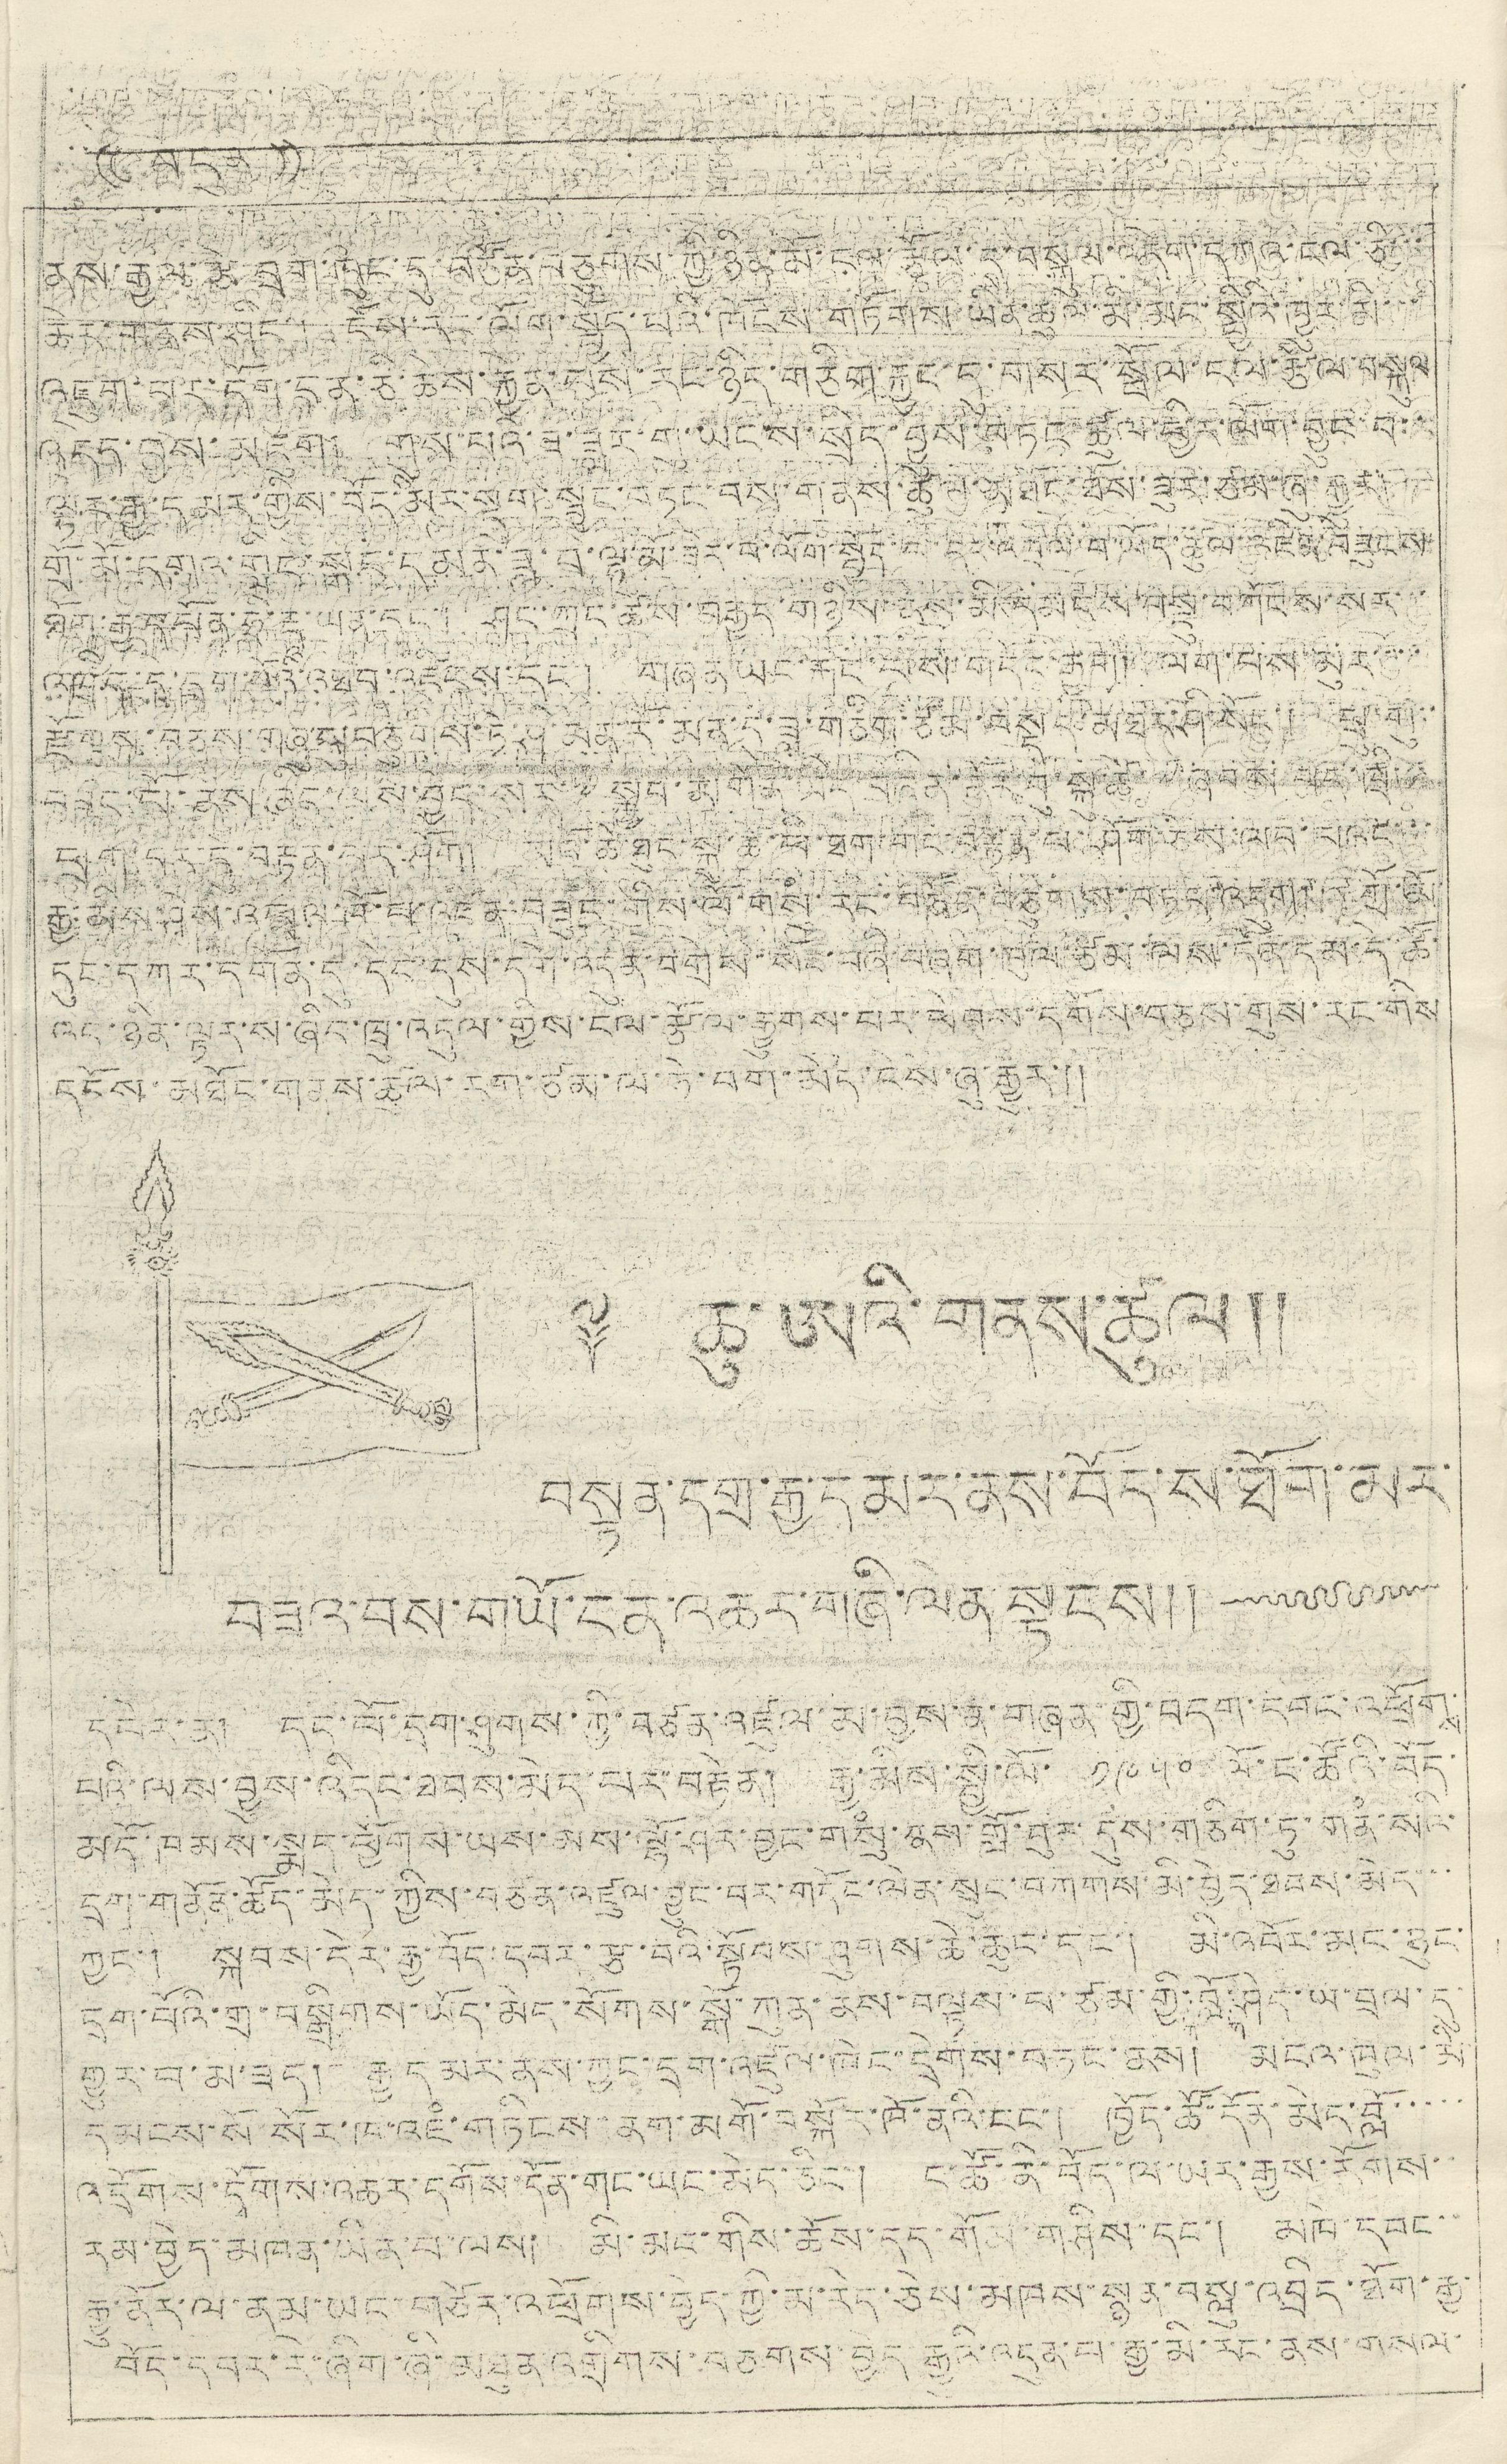(( བདུན་ ))
ནས་རྒྱལ་རྩེ་བྲག་ཁུང་དུ་བརྩོན་བཅུགས་ཀྱི་ཉིན་མོ་ངལ་རྩོལ་དུ་བསྐུལ་འདེག་དཀའ་ངལ་ཅི་
ཆེར་གནས་ཤིང་། དོས་རང་ལོག་སྤྱོད་པའི་ཁོངས་གཏོགས་ཡིན་ཚུལ་མི་མང་སྤྱིའི་ཁྱུར་མི་་་
འཇུག་པར་དོག་ངན་ཅི་ཆེས་རྐྱེན་པས་རང་ཉིད་གཅིག་རྐྱང་དུ་གསར་སྤོལ་ངལ་རྩོལ་བསྐུལ
འདད་བྱས་འཇུག། གུས་པའི་ས་ཟླར་གུ་ཡངས་སྲིད་བྱུས་བཏང་ཚུལ་ཕྱིར་ལོག་བྱུང་བ་
ལྟར་རྒྱ་དམར་གྱིས་བོད་མིར་སྡུག་སྦྱང་བཏང་བས་གནས་ཚུལ་མཐོང་ཐོས་ཟུར་ཙམ་ཞུ་རྒྱུར།
གྲོ་མོ་དགའ་གླིང་སྒང་དམན་ཟླ་བ་ལྟ་མོ་ཟེར་བ་ལོག་སྤྱོད་པ་དང་འབྲེལ་བ་ཡོད་ཚུལ་འཛིན་བཟུངས
ཐོག་རྒྱ་དཔོན་ཧྲི་རྡཱ་ཡན་དང་། ཤང་ཀྲང་ཚོས་བརྒྱད་གཉིས་ནས་མི་དམངས་བསྡུ་ཀོངས་སར་་་
འཁྲིད་དུ་དྲག་པོའི་འཐབ་འཛིངས་དང་། གཞན་ཡང་རྐང་པས་གདོང་རྒྱག། ལག་པས་མུར་་་་
རྫོགས་བཅས་གཞུས་བཅུགས་ཏེ་ཤི་མན་རོ་མན་དུ་ཟླ་གཅིག་ཙམ་བསྡད་མཐར་ཤི་སོང་། ཕྲུ་གུ་་
བཟང་པོ་ནས་ཞིང་ལས་བྱེད་སར་༸སྐྱབ་མགོན་ཡིད་བཞིན་ནོར་བུ་སྐུ་ཚེ་ཞབས་དཔེ་ཁྲི་་་
ཕྲག་བར་དུ་བརྟན་པར་ཤོག། མའོ་ཚེ་ཐུང་སྐུ་ཚེ་ཕི་ཐག་གང་བརྟན་པར་ཤོག་ཅེས་ལབ་པའང་
རྒྱ་མིས་ཤེས་འཕྲལ་ཁོ་པ་འཛིན་བཟུང་གིས་ལོ་གསུཾ་རང་བཙན་བཙུགས་བཏང་འདུག་གྲོ་མོ་
དུང་དཀར་དགོན་དུ་དེང་དུས་དགེ་འདུན་བགྲེས་སོང་བཞི་བཞག་ཁུལ་ཙམ་ལས་དོན་དམ་དེ་ཚོ་
འད་ཉིན་ལྟར་ས་ཞིང་ཁྲུ་འདུལ་གྱིས་ངལ་རྩོལ་རྒྱུགས་པར་ཕེབས་དགོས་བཅས་གུས་རང་གིས
དངོས་མཐོང་གནས་ཚུལ་རག་ཙམ་ལ་ཧེ་བགོ་མེད་ངེས་ཞུ་རྒྱུར་།།
༈ ཆུ་ཨའི་གནས་ཚུལ།།
བསྟན་དགྲ་རྒྱ་དམར་ནས་བོད་ས་ཐོག་མར་
བཟའ་བས་གཡོ་ངན་འཆར་གཞི་ལེན་སྟངས།།
དཔེར་ན། དང་པོ་དྲག་ཤུགས་ཀྱི་བཙན་འཛུལ་མ་བྱས་ན་གཞན་གྱི་བདག་དབང་འཕྲོགས་
པའི་ལས་བྱུས་འདིང་ཐབས་མེད་པར་པར་བརྟེན། རྒྱ་མིས་སྤྱི་ལོ་ ༡༩༥༠ ལོ་ང་ཚོའི་བོད་
མདོ་ཁམས་སྨད་ཕྱོགས་ཡས་མས་ལྷོ་ཤར་བྱང་གསུཾ་ནས་གློ་བུར་དུས་གཅིག་ཏུ་གནཾ་སའི་
དྲག་གནོན་ཚོད་མེད་ཀྱིས་བཙན་འཛུལ་བྱུང་བར་གདོང་ལེན་སྲུང་བཀགས་མི་བྱེད་ཐབས་མེད་་་
ཀྱང་། སྐབས་དེར་རྒྱ་བོད་དབར་རྩ་བའི་སྟོབས་ཤུགས་ཆེ་ཆུང་དང་། མི་འབོར་མང་ཉུང་
དྲག་པོའི་གྲ་བསྒྲིགས་ཡོད་མེད་སོགས་སྒོ་ཀུན་ནས་བལྟས་པ་ཙམ་གྱི་
ཀ་
བློ
ན་
ཤེད་ཡ་བྲལ་དུ་
གྱུར་བ་མ་ཟད། རྒྱད་མར་ནས་ཀྱང་དྲག་འཛུལ་ཁེང་དྲེགས་བཏང་ནས། མངའ་ཁུལ་མི་
དམངས་སོ་སོར་ཁ་འཇཾ་གཏིངས་ནག་མགོ་བསྐོར་ཁོ་ནའི་ངང་། ཁྱོད་ཚོ་དོན་མེད་བློ་་་་་
འདྲོགས་དགོས་འཆར་དགོས་དོན་གང་ཡང་མེད་ཅིང་། ང་ཚོ་ནི་བོད་ལ་ཡར་རྒྱས་རོགས་་
རམ་བྱེད་མཁན་ཡིན་པ་ལས། མི་མང་གིས་ཆོས་དད་གོམ་གཤིས་དང་། མཁེ་དབང་་
རྒྱུ་ནོར་ལ་ནམ་ཡང་གཙེར་འཕྲོགས་བྱེད་ཀྱི་མ་རེད་ཅེས་མཁས་སྙན་བསླུ་འབྲིད་ཐོག་རྒྱ་
བོད་དབར་རེ་ཞིག་ཞི་མཐུན་འགྲིགས་བཅགས་བྱེད་རྒྱུའི་འདུན་པ་རྒྱ་མི་རང་ནས་གསལ་
